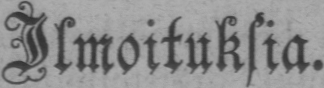Ilmoituksia.
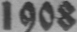1908
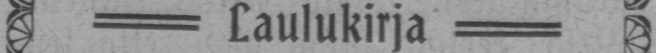Laulukirja
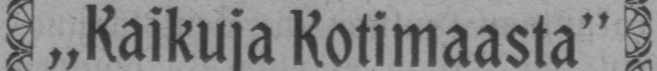„Kaikuja Kotimaasta"
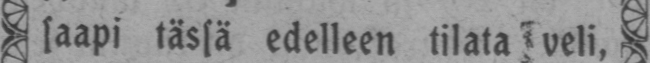saapi tässä edelleen tilata veli,
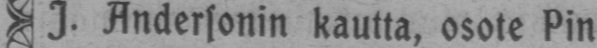J. Andersonin kautta, osote Pin-
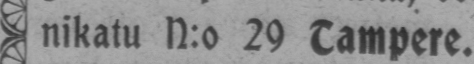nikatu N:o 29 Tampere.
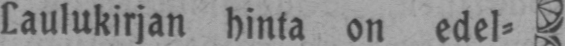Laulukirjan hinta on edel-
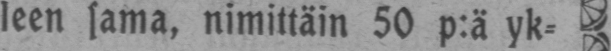leen sama, nimittäin 50 p:ä yk-
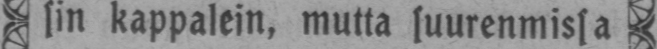sin kappalein, mutta suurenmissa
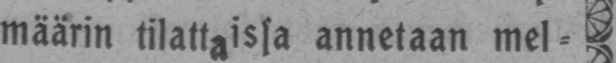määrin tilattaissa annetaan mel-
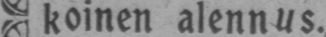koinen alennus.
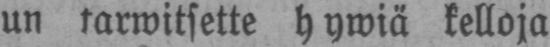Kun tarwitsette hywiä kelloja,
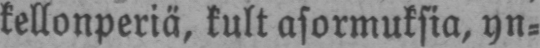kellonperiä, kultasormuksia, yn-
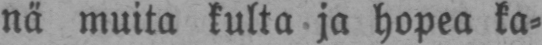nä muita kulta ja hopea ka-
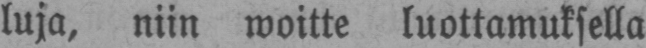luja, niin woitte luottamuksella
